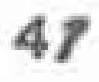41
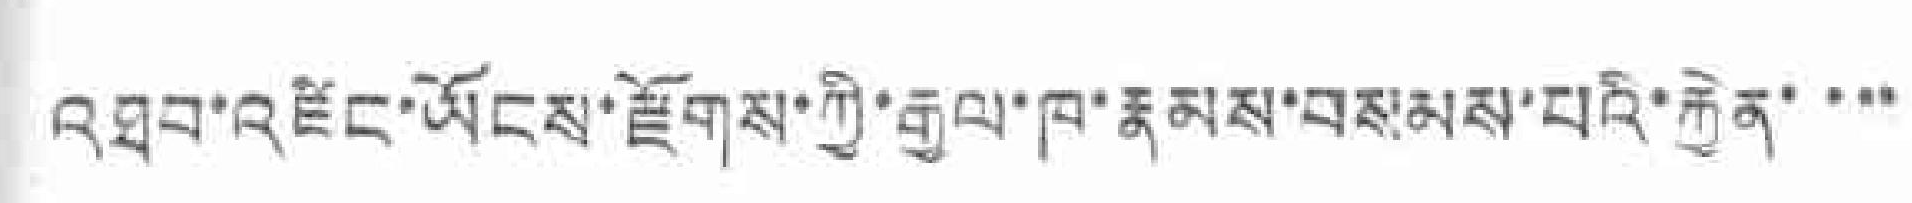འཐབ་འཛིང་ཡོངས་རྫོགས་ཀྱི་རྒྱལ་ཁ་རྣམས་བསམས་པའི་རྐྱེན་་་་
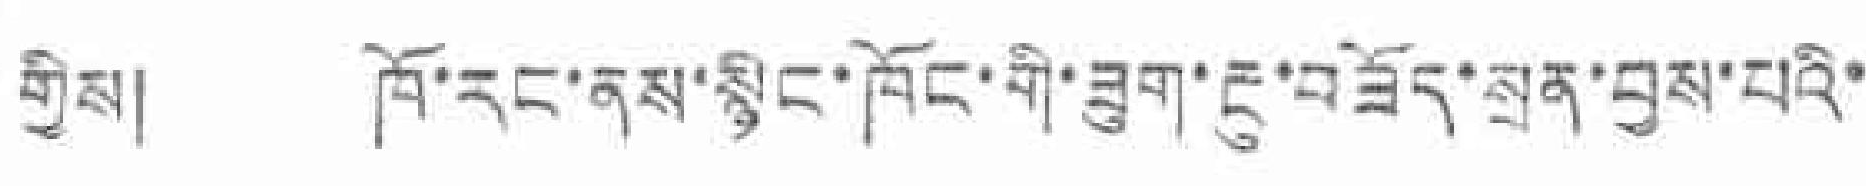གྱིས། ཁོ་རང་ནས་སྙང་ཁོང་གི་ཟུག་རྔུ་བཟོད་སྲན་བྱས་པའི་
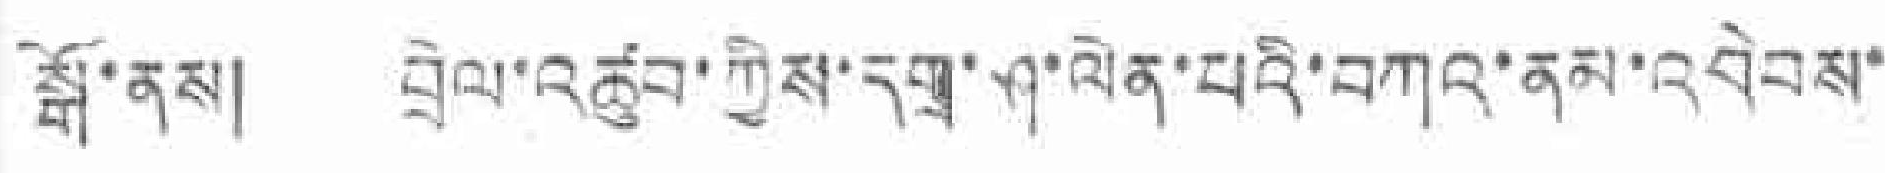སྒོ་ནས། བྲེལ་འཚུབ་ཀྱིས་དགྲ་ཤ་ལེན་པའི་བཀའ་ནམ་འབེབས་
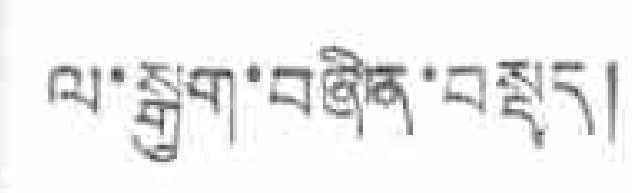ལ་སྒུག་བཞིན་བསྡད།
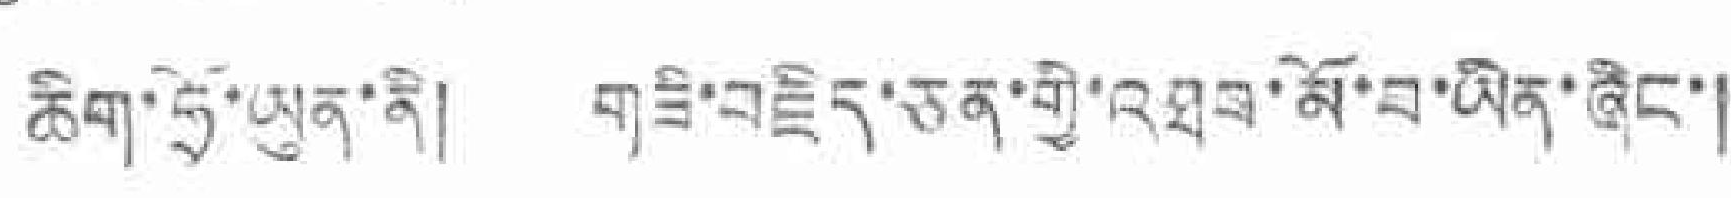ཆིག་ཧྲོ་ཡུན་ནི། གཟི་བརྗིད་ཅན་གྱི་འཐབ་མོ་བ་ཡིན་ཞིང་།
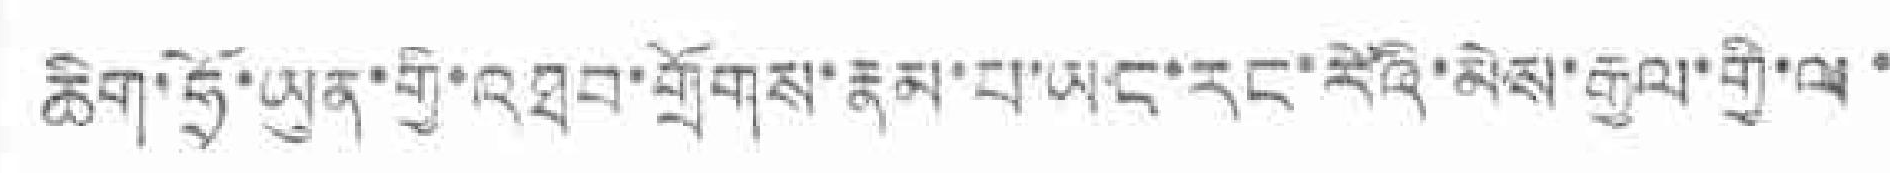ཆིག་ཧྲོ་ཡུན་གྱི་འཐག་གྲོགས་རྣམ་པ་ཡང་རང་རེའི་མེས་རྒྱལ་གྱི་ལ་
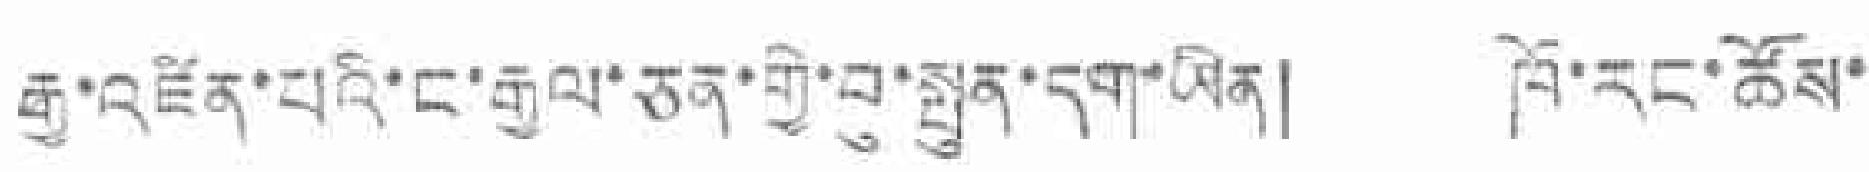རྒྱ་འཛིན་པའི་ང་རྒྱལ་ཅན་གྱི་བུ་སྤུན་དག་ཡིན། ཁོ་རང་ཚོས་
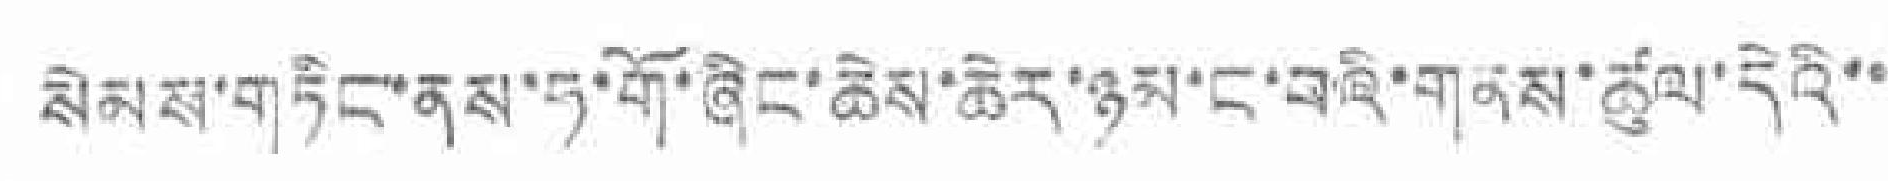སེམས་གཏིང་ནས་ཧ་གོ་ཞིང་ཆེས་ཆེར་ཉམ་ང་བའི་གནས་ཚུལ་དེའི་་
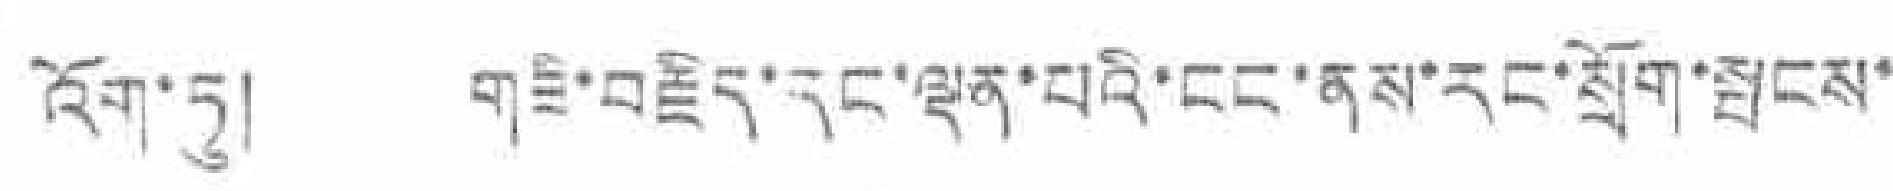འོག་ཏུ། གཟི་བརྗེད་དང་ལྡན་པའི་ངང་ནས་རང་སྒྲོག་སྤངས་
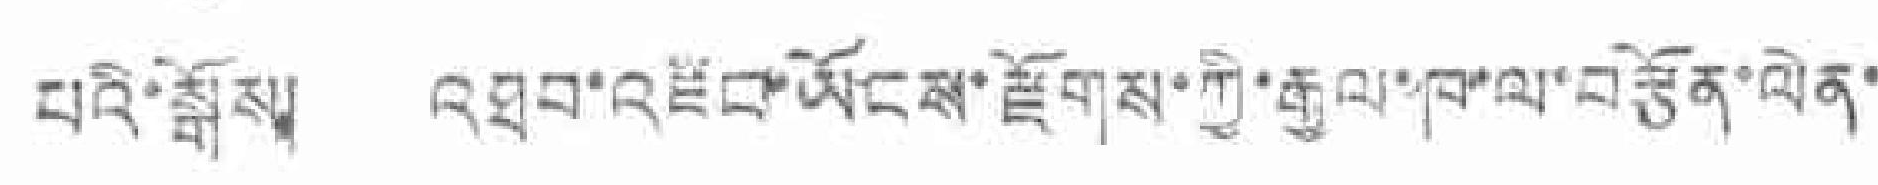པའི་སྒོས། འཐབ་འཛིང་ཡོངས་རྫོགས་ཀྱི་རྒྱལ་ཁ་ལ་བརྩོན་ལེན་
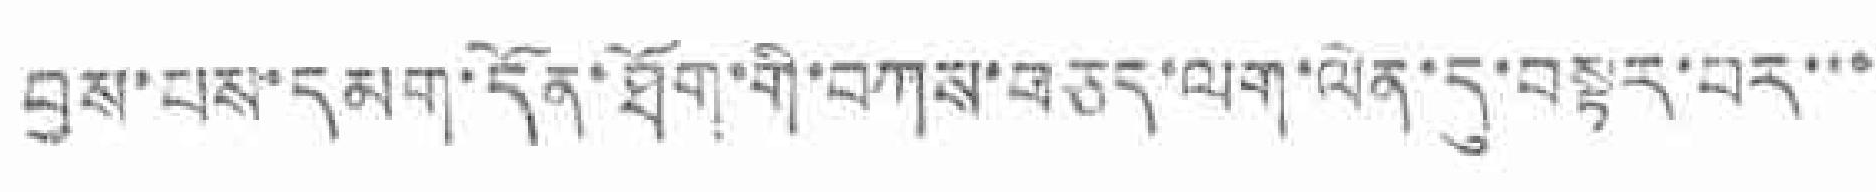བྱས་པས་དམག་དོན་ཐོག་གི་བཀས་གཅད་ལག་ལོན་དུ་བསྟར་པར་་་
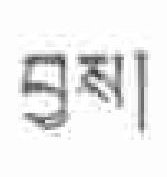བྱས།
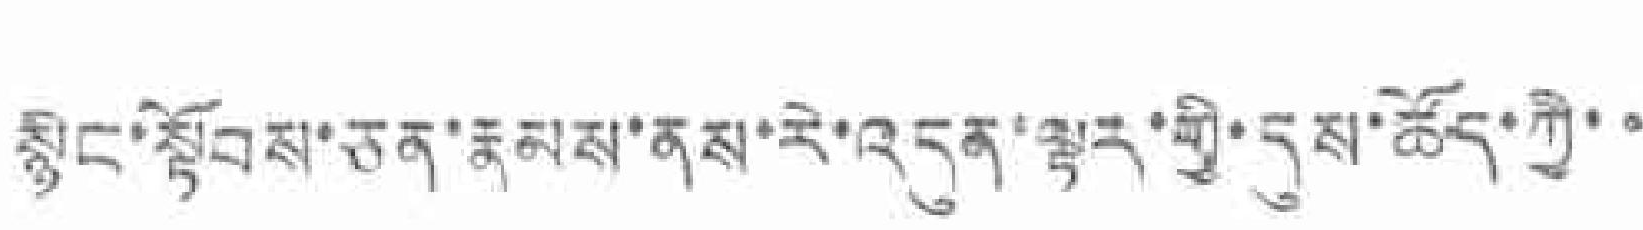སྙིང་སྟོབས་ཅན་རྣམས་ནས་རེ་འདུན་ལྟར་གྱི་དུས་ཚོད་ཀྱི་་
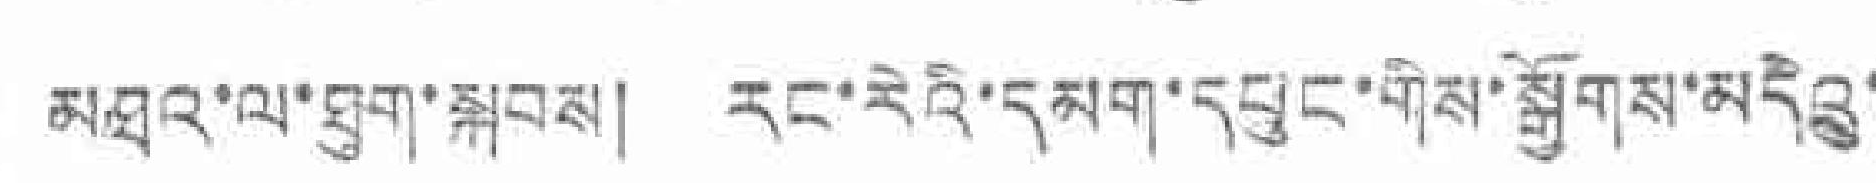མཐའ་ལ་ཐུག་སྐབས། རང་རེའི་དམག་དཔུང་གིས་སྒྱོགས་མདེའུ་
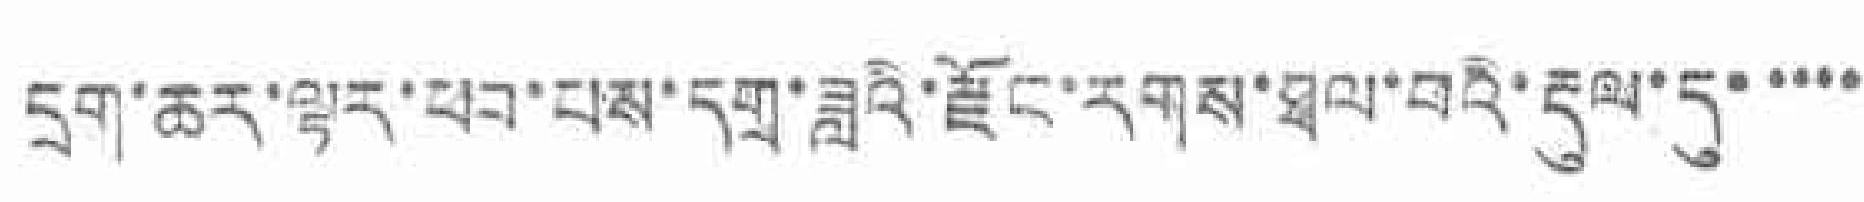དྲག་ཆར་ལྟར་ཕབ་པས་དགྲ་ཟླའི་རྫོང་རགས་ཐལ་བདི་རྡུལ་དུ་་་་་
